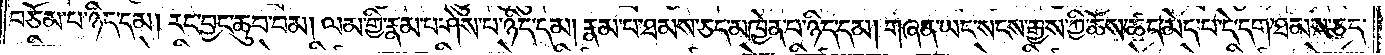བཅོམ་པ་ཉིད་དམ། རང་བྱང་ཆུབ་བམ། ལམ་གྱི་རྣམ་པ་ཤེས་པ་ཉིད་དམ། རྣམ་པ་ཐམས་ཅད་མཁྱེན་པ་ཉིད་དམ། གཞན་ཡང་སངས་རྒྱས་ཀྱི་ཆོས་ཚད་མེད་པ་དེ་དག་ཐམས་ཅད་
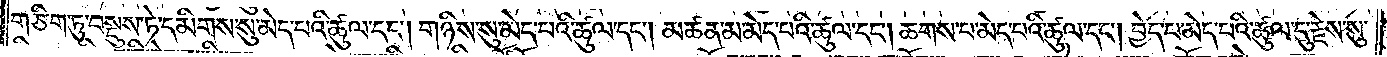གཅིག་ཏུ་བསྡུས་ཏེ་དམིགས་སུ་མེད་པའི་ཚུལ་དང༌། གཉིས་སུ་མེད་པའི་ཚུལ་དང༌། མཚན་མ་མེད་པའི་ཚུལ་དང༌། ཆགས་པ་མེད་པའི་ཚུལ་དང༌། བྱེད་པ་མེད་པའི་ཚུལ་དུ་རྗེས་སུ་
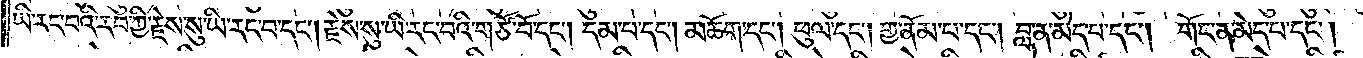ཡི་རང་བའི་རབ་ཀྱིས་རྗེས་སུ་ཡི་རང་བ་དང༌། རྗེས་སུ་ཡི་རང་བའི་གཙོ་བོ་དང༌། དམ་པ་དང༌། མཆོག་དང༌། ཕུལ་དང༌། གྱ་ནོམ་པ་དང༌། བླ་ན་མེད་པ་དང༌། གོང་ན་མེད་པ་དང༌།
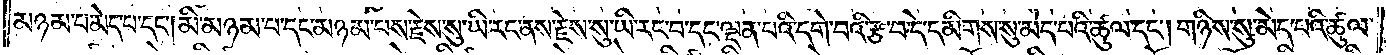མཉམ་པ་མེད་པ་དང༌། མི་མཉམ་པ་དང་མཉམ་པས་རྗེས་སུ་ཡི་རང་ནས་རྗེས་སུ་ཡི་རང་བ་དང་ལྡན་པའི་དགེ་བའི་རྩ་བ་དེ་དམིགས་སུ་མེད་པའི་ཚུལ་དང༌། གཉིས་སུ་མེད་པའི་ཚུལ་
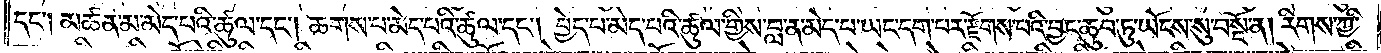དང༌། མཚན་མ་མེད་པའི་ཚུལ་དང༌། ཆགས་པ་མེད་པའི་ཚུལ་དང༌། བྱེད་པ་མེད་པའི་ཚུལ་གྱིས་བླ་ན་མེད་པ་ཡང་དག་པར་རྫོགས་པའི་བྱང་ཆུབ་ཏུ་ཡོངས་སུ་བསྔོ་ན། རིགས་ཀྱི་
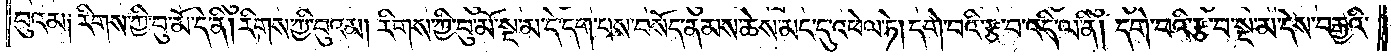བུའམ༑ རིགས་ཀྱི་བུ་མོ་དེ་ནི། རིགས་ཀྱི་བུའམ། རིགས་ཀྱི་བུ་མོ་སྔ་མ་དེ་དག་པས་བསོད་ནམས་ཆེས་མང་དུ་འཕེལ་ཏེ། དགེ་བའི་རྩ་བ་འདི་ལ་ནི། དགེ་བའི་རྩ་བ་སྔ་མ་དེས་བརྒྱའི་
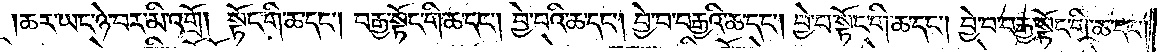ཆར་ཡང་ཉེ་བར་མི་འགྲོ། སྟོང་གི་ཆ་དང༌། བརྒྱ་སྟོང་གི་ཆ་དང༌། བྱེ་བའི་ཆ་དང༌། བྱེ་བ་བརྒྱའི་ཆ་དང༌། བྱེ་བ་སྟོང་གི་ཆ་དང༌། བྱེ་བ་བརྒྱ་སྟོང་གི་ཆ་དང༌།
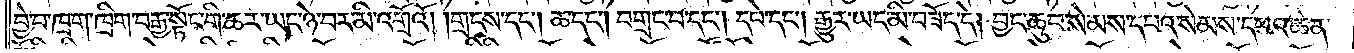བྱེ་བ་ཁྲག་ཁྲིག་བརྒྱ་སྟོང་གི་ཆར་ཡང་ཉེ་བར་མི་འགྲོའོ། གྲངས་དང༌། ཆ་དང༌། བགྲང་བ་དང༌། དཔེ་དང༌། རྒྱུར་ཡང་མི་བཟོད་དེ། བྱང་ཆུབ་སེམས་དཔའ་སེམས་དཔའ་ཆེན་
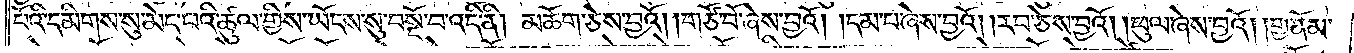པོའི་དམིགས་སུ་མེད་པའི་ཚུལ་གྱིས་ཡོངས་སུ་བསྔོ་བ་འདི་ནི། མཆོག་ཅེས་བྱའོ། །གཙོ་བོ་ཞེས་བྱའོ། །དམ་པ་ཞེས་བྱའོ། །རབ་ཅེས་བྱའོ། །ཕུལ་ཞེས་བྱའོ། །གྱ་ནོམ་
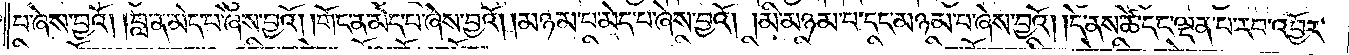པ་ཞེས་བྱའོ། །བླ་ན་མེད་པ་ཞེས་བྱའོ། །གོང་ན་མེད་པ་ཞེས་བྱའོ། །མཉམ་པ་མེད་པ་ཞེས་བྱའོ། །མི་མཉམ་པ་དང་མཉམ་པ་ཞེས་བྱའོ། །དེ་ནས་ཆེ་དང་ལྡན་པ་རབ་འབྱོར་
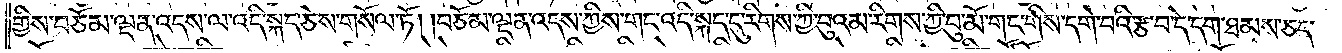གྱིས་བཅོམ་ལྡན་འདས་ལ་འདི་སྐད་ཅེས་གསོལ་ཏོ། །བཅོམ་ལྡན་འདས་ཀྱིས་གང་འདི་སྐད་དུ་རིགས་ཀྱི་བུའམ་རིགས་ཀྱི་བུ་མོ་གང་གིས་དགེ་བའི་རྩ་བ་དེ་དག་ཐམས་ཅད་
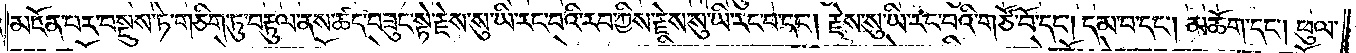མངོན་པར་བསྡུས་ཏེ་གཅིག་ཏུ་བརྟུལ་ནས་ཚད་བཟུང་སྟེ་རྗེས་སུ་ཡི་རང་བའི་རབ་ཀྱིས་རྗེས་སུ་ཡི་རང་བ་དང༌། རྗེས་སུ་ཡི་རང་བའི་གཙོ་བོ་དང༌། དམ་པ་དང༌། མཆོག་དང༌། ཕུལ་
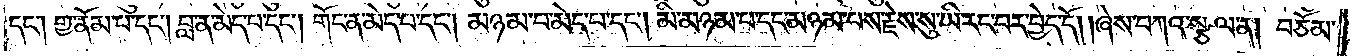དང༌། གྱ་ནོམ་པ་དང༌། བླ་ན་མེད་པ་དང༌། གོང་ན་མེད་པ་དང༌། མཉམ་པ་མེད་པ་དང༌། མི་མཉམ་པ་དང་མཉམ་པས་རྗེས་སུ་ཡི་རང་བར་བྱེད་དོ། །ཞེས་བཀའ་སྩལ་ན། བཅོམ་
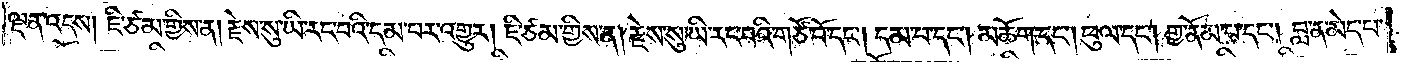ལྡན་འདས། ཇི་ཙམ་གྱིས་ན། རྗེས་སུ་ཡི་རང་བའི་དམ་པར་འགྱུར། ཇི་ཙམ་གྱིས་ན། རྗེས་སུ་ཡི་རང་བའི་གཙོ་བོ་དང༌། དམ་པ་དང༌། མཆོག་དང༌། ཕུལ་དང༌། གྱ་ནོམ་པ་དང༌། བླ་ན་མེད་པ་
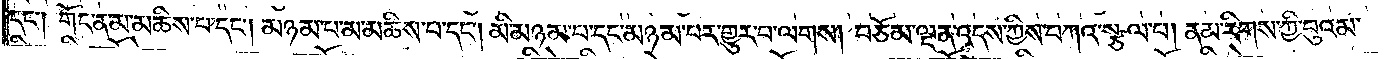དང༌། གོང་ན་མ་མཆིས་པ་དང༌། མཉམ་པ་མ་མཆིས་པ་དང༌། མི་མཉམ་པ་དང་མཉམ་པར་གྱུར་པ་ལགས། བཅོམ་ལྡན་འདས་ཀྱིས་བཀའ་སྩལ་པ། ནམ་རིགས་ཀྱི་བུའམ་
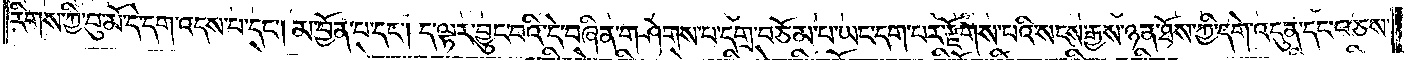རིགས་ཀྱི་བུ་མོ་དེ་དག་འདས་པ་དང༌། མ་བྱོན་པ་དང༌། ད་ལྟར་བྱུང་བའི་དེ་བཞིན་གཤེགས་པ་དགྲ་བཅོམ་པ་ཡང་དག་པར་རྫོགས་པའི་སངས་རྒྱས་ཉན་ཐོས་ཀྱི་དགེ་འདུན་དང་བཅས་
